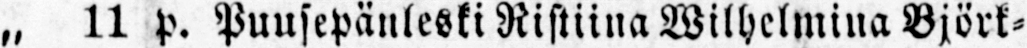„ 11 p. Puusepänleski Ristiina Wilhelmina Björk-
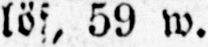löf, 59 w.
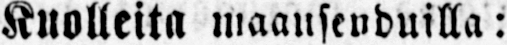Kuolleita maansenduilla:
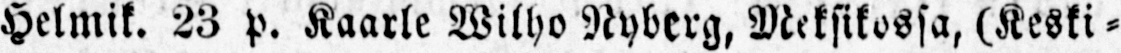Helmik. 23 p. Kaarle Wilho Nyberg, Meksikossa, (Keski -
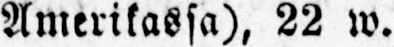Amerikassa), 22 w.
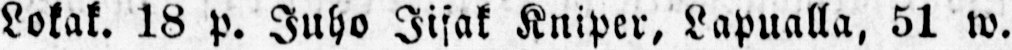Lokak. 18 p. Juho Iisak Kniper, Lapualla, 51 w.
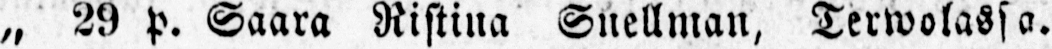„ 29 p. Saara Ristina Snellman, Terwolassa.
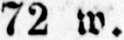72 w.
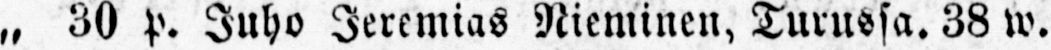„ 30 P. Juho Jeremias Nieminen, Turussa. 38 w.
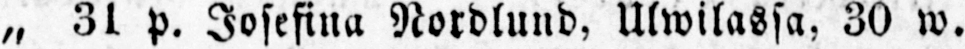„ 3l p. Josefina Nordlund, Ulwilassa, 30 w.
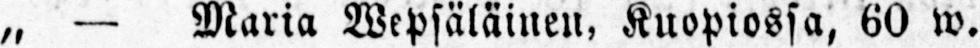„ — Maria Wepsäläinen, Kuopiossa, 60 w.
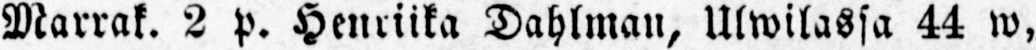Marrak. 2 p. Henriika Dahlman, Ulwilassa 44 w,
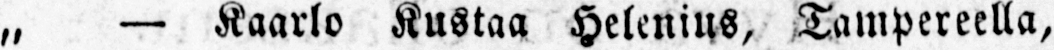„ — Kaarlo Kustaa Helenius, Tampereella,
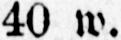40 w.
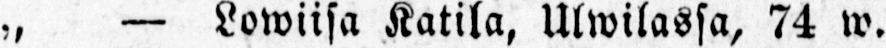„ — Lowiisa Katila, Ulwilassa, 74 w.
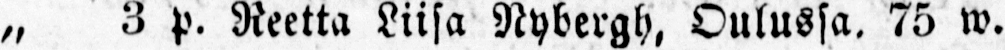„ 3 p. Reetta Liisa Nybergh, Oulussa. 75 w.
